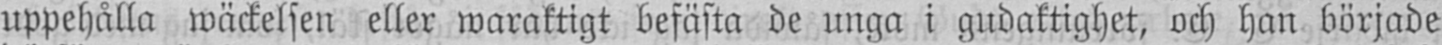uppehålla wäckelsen eller waraktigt befästa de unga i gudaktighet, och han började
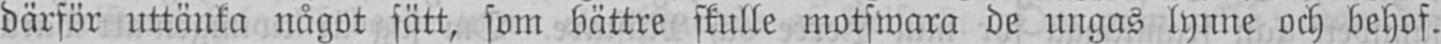därför uttänka något sätt, som bättre skulle motswara de ungas lynne och behof.
